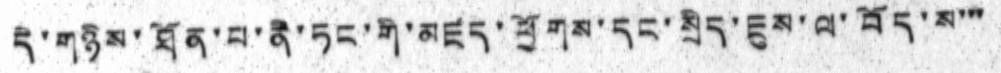དེ་གཉིས་ཐོན་པ་ནི་ཏང་གི་མཛད་ཕྱོགས་དང་སྲིད་ཇུས་ལ་བོད་ས་་་
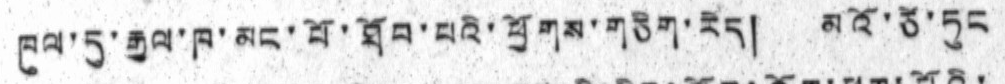ཁུལ་དུ་རྒྱལ་ཁ་མང་པོ་ཐོབ་པའི་ཕྱོགས་གཅིག་རེད། མའོ་ཙེ་ཏུང
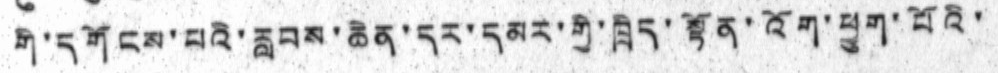གི་དགོངས་པའི་རླབས་ཆེན་དར་དམར་གྱི་ཁྲིད་སྟོན་འོག་ཕྱུག་པོའི་
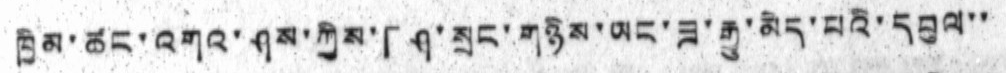ཁྱིམ་ཚང་འགའ་ཤས་ཀྱིས་「ཤ་སྲང་གཉིས་ཡང་ཟ་རྒྱུ་མེད་པའི་དབུལ་་
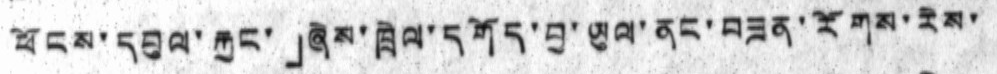ཕོངས་དབུལ་རྐྱང་」ཞེས་ཁྲེལ་དགོད་བུ་ཡུལ་ནང་བཟན་རོགས་རེས་
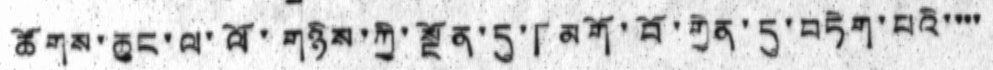ཚོགས་ཆུང་ལ་ལོ་གཉིས་ཀྱི་སྔོན་དུ་「མགོ་བོ་གྱེན་དུ་བཏེག་པའི་་་་
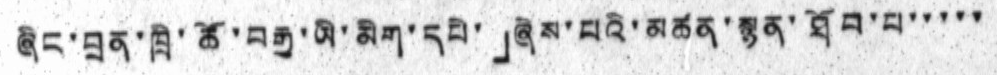ཞིང་བྲན་ཁྲི་ཚོ་བརྒྱ་ཡི་མིག་དཔེ་」ཞེས་པའི་མཚན་སྙན་ཐོབ་པ་་་་་
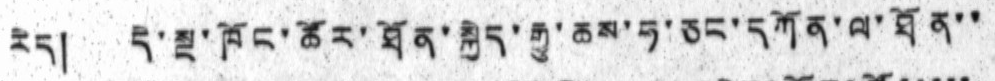རེད། དེ་སྔ་ཁོང་ཚོར་ཐོན་སྐྱེད་རྒྱུ་ཆས་ཧ་ཅང་དཀོན་ལ་ཐོན་་
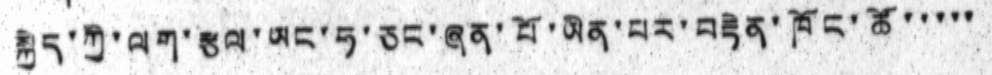སྐྱེད་ཀྱི་ལག་རྩལ་ཡང་ཧ་ཅང་ཞན་པོ་ཡིན་པར་བརྟེན་ཁོང་ཚོ་་་་་
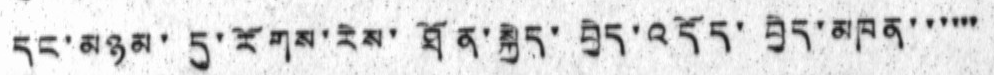དང་མཉམ་དུ་རོགས་རེས་ཐོན་སྐྱེད་བྱེེད་འདོད་བྱེད་མཁན་་་་་་
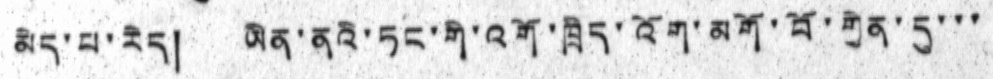མེད་པ་རེད། ཡིན་ནའི་ཏང་གི་འགོ་ཁྲིད་འོག་མགོ་བོ་གྱེན་དུ་་་
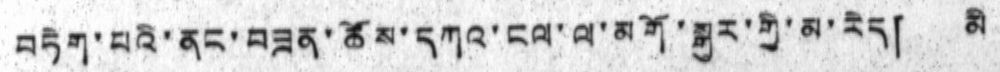བཏེག་པའི་ནང་བཟན་ཚོས་དཀའ་ངལ་ལ་མགོ་སྒུར་གྱི་མ་རེད། མི
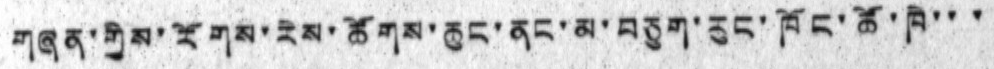གཞན་གྱིས་རོགས་རེས་ཚོགས་ཆུང་ནང་མ་བཅུག་རུང་ཁོང་ཚོ་ཁེ་་་
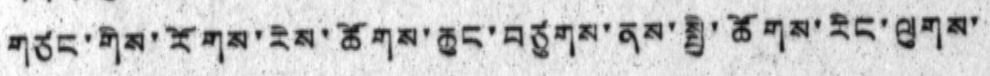གཙང་གིས་རོགས་རེས་ཚོགས་ཆུང་བཙུགས་ནས་སྤྱི་ཚོགས་རིང་ལུགས་
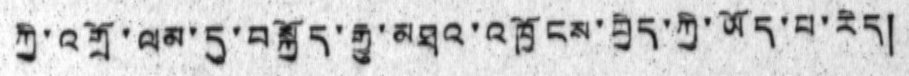ཀྱི་འགྲོ་ལམ་དུ་བསྐྱོད་རྒྱུ་མཐའ་འཁྱོངས་བྱེད་ཀྱི་ཡོད་པ་རེད།
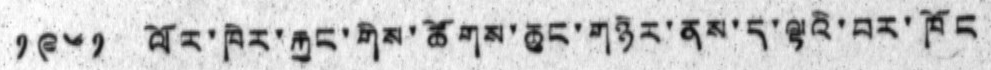༡༩༦༡ ལོར་ཁེར་རྐྱང་གིས་ཚོགས་ཆུང་གཉེར་ནས་ད་ལྟའི་བར་ཁོང
